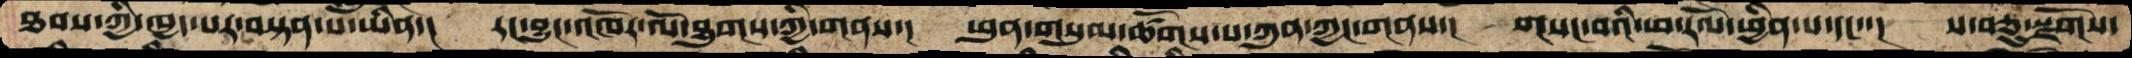ཐབས་ཀྱི་ཁྱད་པར་བསྟན་པ་ཡིན་།  རང་བྱུང་འཁོར་ལོ་ཐུགས་ཀྱི་གནས་།  ཕུན་གསུམ་ཚོགས་པ་ཀུན་ཀྱང་གནས་།  གསང་བའི་ཕ་རོལ་ཕྱིན་པ་དང་་།  ས་བཅུ་སྫོགས་
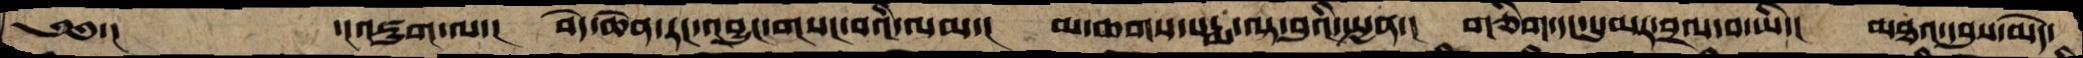༄༅་།    ་།འཇུག་ལ་།  བདེ་ཆེན་རང་འབྱུང་གསང་བའི་ལམ་།  མ་ཆགས་པདྨ་ལྟ་བུའི་སྤྱན་།  གཅིག་དང་དུ་མར་བྲལ་བ་ཡི་།  མཐའ་དབུས་མེད་
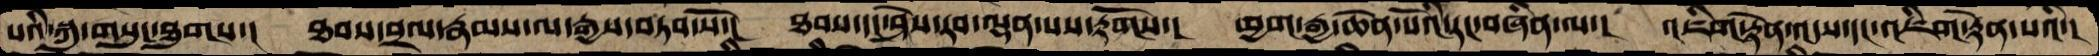པའི་སྐུ་གསུང་ཐུགས་།  ཐབས་བྲལ་རྣམས་ལ་རྒྱས་བཏབ་སོ་།  ཐབས་དང་ཤེས་རབ་ལྡན་པས་རྟོགས་།  ཕྱག་རྒྱ་ཆེན་པོའི་རང་བཞིན་ལ་།  འཇིག་རྟེན་འདས་དང་འཇིག་རྟེན་པའི་།
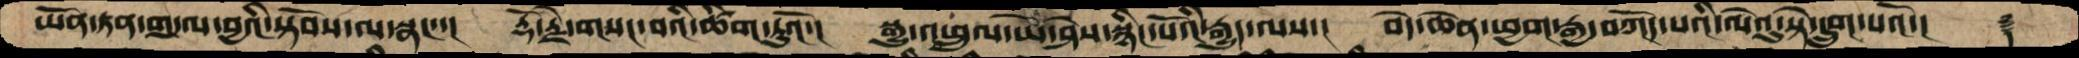ཡོན་ཏན་གདུལ་བྱའི་སྟོབས་ལ་སྣང་་།  རྡོ་རྗེ་གསང་བའི་ཚིག་ཏུའོ་།  སྒྱུ་འཕྲུལ་ཡེ་ཤེས་སྙིང་པོའི་རྒྱུད་ལས་།  བདེ་ཆེན་ཕྱག་རྒྱ་བཀོད་པའི་ལེའུ་སྟེ་དྲུག་པའོ་།   ࿑
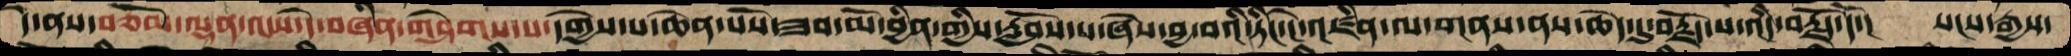དེ་ནས་བཅོམ་ལྡན་འདས་དེ་བཞིན་གཤེགས་པ་དགྱེས་པ་ཆེན་པོས་ཟབ་མོ་བྱིན་གྱིས་རློབས་པ་ཞེས་བྱ་བའི་ཏིང་ངེ་འཛིན་ལ་གནས་ནས་ཆེད་དུ་བརྗོད་པ་འདི་བརྗོད་དོ་།  སངས་རྒྱས་
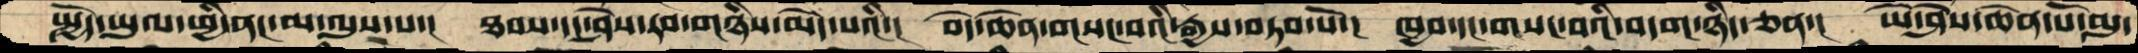སྤྱོད་ཡུལ་ཕྱི་ནང་མ་ལུས་པ་།  ཐབས་དང་ཤེས་རབ་གཉིས་མེད་པའི་།  བདེ་ཆེན་གསང་བའི་རྒྱས་བཏབ་པོ་།  ཁྱབ་དང་གསང་བའི་བདག་ཉིད་ཅན་།  ཡེ་ཤེས་ཆེན་པོ་མུ་
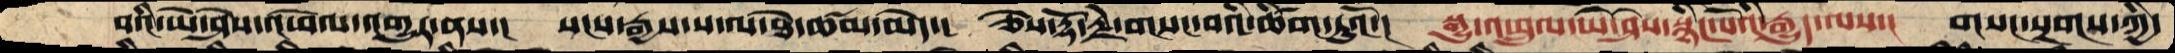བའི་ཡེ་ཤེས་འཕེལ་འགྱུར་ནས་།  སངས་རྒྱས་ས་ལ་ཐེ་ཚོམ་མེད་།  ཅེས་རྡོ་རྗེ་གསང་བའི་ཚིག་ཏུའོ་།  སྒྱུ་འཕྲུལ་ཡེ་ཤེས་སྙིང་པོའི་རྒྱུད་ལས་།  གསང་སྔགས་ཀྱི་
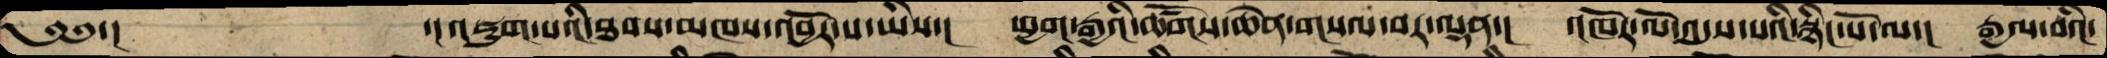༄༅་།            ་།འཇུག་པའི་ཐབས་མཁས་འབྱོར་པ་ཡིས་།  ཕྱག་རྒྱའི་ཚོགས་ཆེན་གསལ་བར་ལྡན་།  འཁོར་ལོ་འདུས་པའི་སྙིང་པོ་ལ་།  རྒྱལ་བའི་
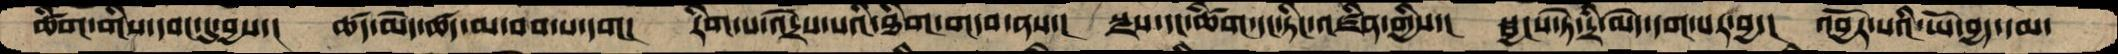ཚིག་གིས་དབང་དུ་བྱས་།  ཚད་མེད་ཚད་མ་བབ་པ་དག།  རིག་པ་འདྲེས་པའི་ཐིག་གདབ་ནས་།  སྫས་དང་ཚིག་དང་ཏིང་འཛིན་གྱིས་།  སྦྱངས་ཏེ་དྲི་མེད་དག་པར་བྱ་།  འབྱོར་པའི་ཡོ་བྱད་དམ་
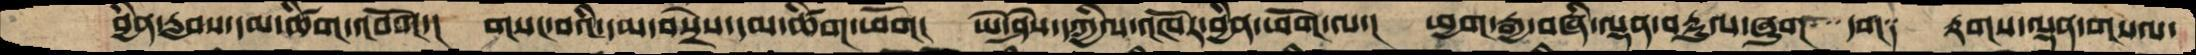བྱིན་རླབས་དམ་ཚིག་འབོག་།  གསང་བའི་དམ་བསྲེས་དམ་ཚིག་ཕོག།  ཡེ་ཤེས་དཀྱིལ་འཁོར་བྱིན་ཕོག་ལ་།  ཕྱག་རྒྱ་བཞི་ལྡན་བརྡུལ་ཞུག་་་་དག༑  རྟགས་ལྡན་གསལ་
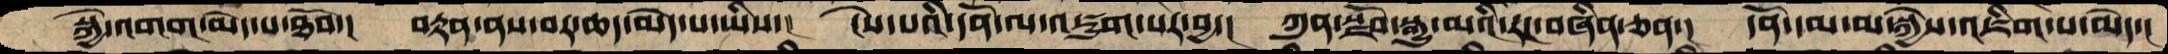སྐྱེ་འགག་མེད་པ་ཐོབ་།  བརྟན་ནས་བར་ཆད་མེད་པ་ཡིས་།   ངེས་པའི་དོན་ལ་འཇུག་པར་བྱ་།  ཀུན་སྫོབ་སྒྱུ་མའི་རང་བཞིན་ཅན་།  དོན་དམ་མ་སྐྱེས་འཇིག་པ་མེད་།
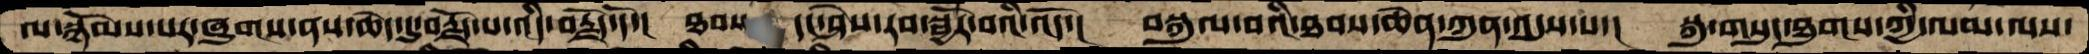ལ་སྙོམས་པར་ཞུགས་ནས་ཆེད་དུ་བརྗོད་པ་འདི་བརྗོད་དོ་།  ཐབས་ དང་ཤེས་རབ་སྦྱོར་བའི་འོད་།  བསྐུལ་བའི་ཐབས་ཆེན་ཀུན་འདུས་པ་།  སྐུ་གསུང་ཐུགས་ཀྱི་ལམ་ལས་
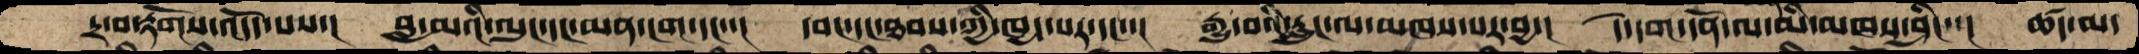དྲ་བ་རྟོགས་འདོད་པས་།  བླ་མའི་ལུང་དང་མན་ངག་དང་་།  དབང་དང་ཐབས་ཀྱི་ཁྱད་པར་དང་་།   རྒྱུ་བའི་རླུང་ལ་མཁས་པར་བྱ་།  དེ་དག་དོན་ལ་མི་མཁས་ཤིང་་།  ཚད་མ་
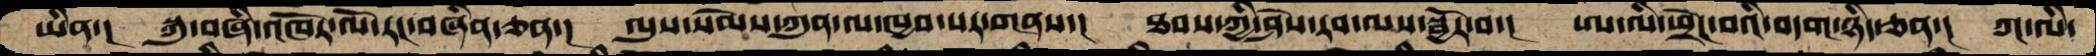ཡིན་།  སྐུ་བཞི་འཁོར་ལོ་རང་བཞིན་ཅན་།  ལུས་སེམས་ཀུན་ལ་ཁྱབ་པར་གནས་།  ཐབས་ཀྱི་ཤེས་རབ་ལས་སྦྱོར་བ་།   ཨ་ལི་ཕྲེང་བའི་བདག་ཉིད་ཅན་།  ཀ་ལི་
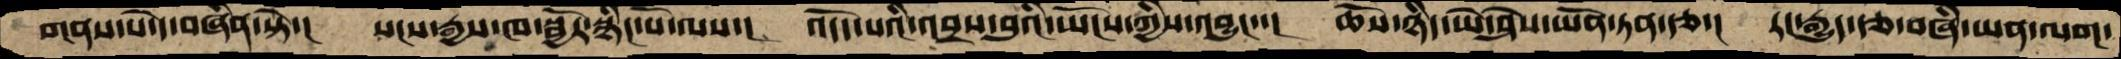གནས་པ་དེ་བཞིན་སྟེ་།  སངས་རྒྱས་ཁ་སྦྱོར་སྙིང་པོ་ལས་།  འདོད་པའི་འབྲས་བུའི་ཡོངས་ཀྱིས་འབྱུང་་།   ཆོས་ཉིད་ཡེ་ཤེས་ཡོན་ཏན་རྩ་།  རང་རྒྱུད་རྩ་བཞི་ཡན་ལག་
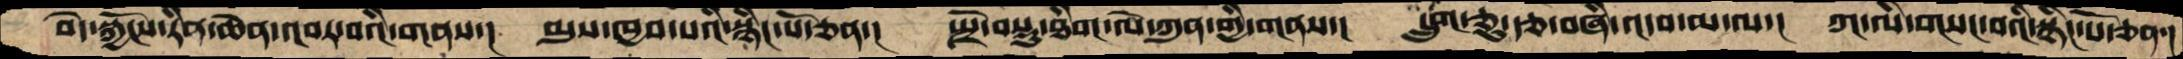བདེ་སྐྱོངས་རིན་ཆེན་འབར་བའི་གནས་།  མུས་ཁྱབ་པའི་སྙིང་པོ་ཅན་།  སྤྲོ་བསྡུ་ཐིག་ལེ་ཀུན་གྱི་གནས་།   དྲུག་ཅུ་རྩ་བཞི་འདབ་མ་ལ་།  ཀ་ལི་གསང་བའི་སྙིང་པོ་ཅན་།
